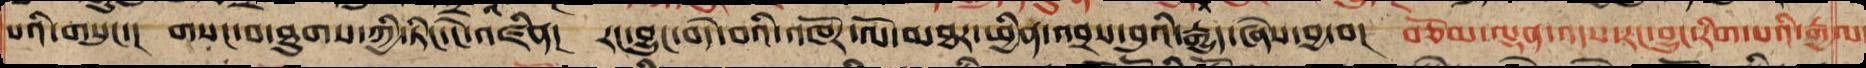པའི་གསུང་། གསང་བ་ཐུགས་ཀྱི་ཏིང་ངེ་འཛིན་། རང་བྱུང་བདེ་བའི་འཁོར་ལོ་མཐར་ཕྱིན་འབྲས་བུའི་རྒྱུད་ཅེས་བྱ་བ། བཅོམ་ལྡན་འདས་རང་བྱུང་རིག་པའི་རྒྱལ
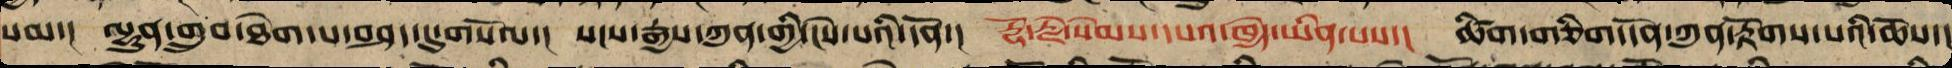སམ་། ལྷུན་གྲུབ་ཐེག་པ་བཤད་དུ་གསོལ་། སངས་རྒྱས་ཀུན་གྱི་ངེས་པའི་དོན་། རྡོ་རྗེ་སེམས་དཔའ་ཁྱེད་ཡིན་པས་། ཚིག་གཅིག་དོན་ཀུན་རྟོགས་པའི་ཆོས་།
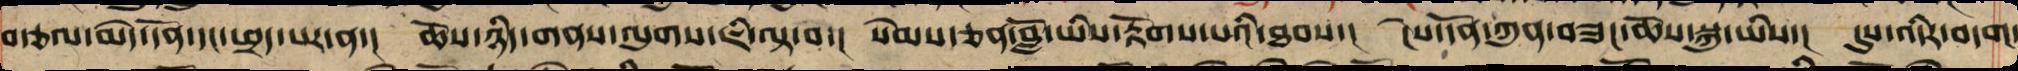བཙལ་མེད་དོན་དང་ཕྲད་པར་ན་། ཆོས་ཉིད་གནས་ལུགས་ཇི་ལྟ་བ་། སེམས་ཅན་བློ་ཡིས་རྟོགས་པའི་ཐབས་། ངེས་དོན་ཀུན་བཟང་ཆོས་སྐུ་ཡིས་། དུས་འདིར་བདག་
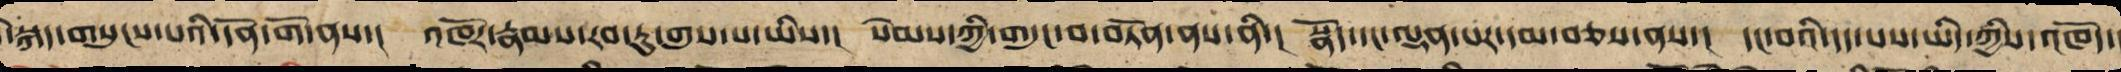་སྐད་གསུངས་པའི་དོན་གོ་ནས་། འཁོར་རྣམས་རབ་ཏུ་གུས་པ་ཡིས་། སེམས་ཀྱི་གདུང་བ་བཏོན་ནས་ནི་། སྣོད་དང་ལྡན་པར་དམ་བཅས་ནས་། དང་བའི་དད་པའི་ཡིད་ཀྱིས་འཁོད་།
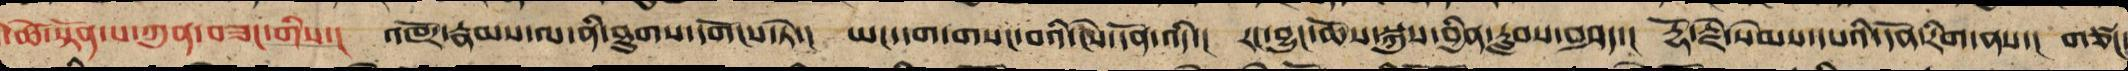་ཚེ་སྟོན་པ་ཀུན་བཟང་གིས་། འཁོར་རྣམས་ལ་ནི་ཐུགས་དགོངས་ཏེ་། ཡང་དག་གསང་བའི་ངེས་དོན་འདི་། རང་བྱུང་ཆོས་སྐུས་བྱིན་བརླབས་བཤད་། རྡོ་རྗེ་སེམས་དཔའི་དོན་རིག་ནས་། གཙང
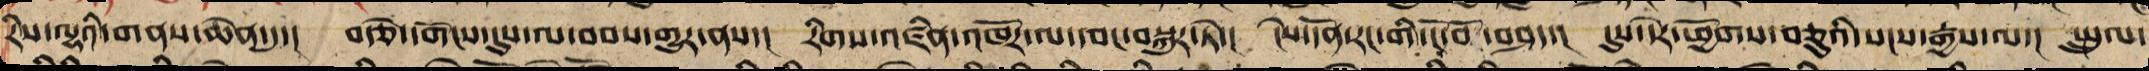རིས་ལྷའི་གནས་ཆེན་དུ་། བརྩེར་དགོངས་དུས་ལ་བབ་གྱུར་ནས་། རིགས་འཛིན་འཁོར་ལ་དབང་བསྐུར་ཏེ་། ངེས་དོན་རང་གི་ངོ་བོས་བཤད་། དུས་དེར་ཕྱོགས་བཅུའི་སངས་རྒྱས་ལ་། སྤྲུལ་
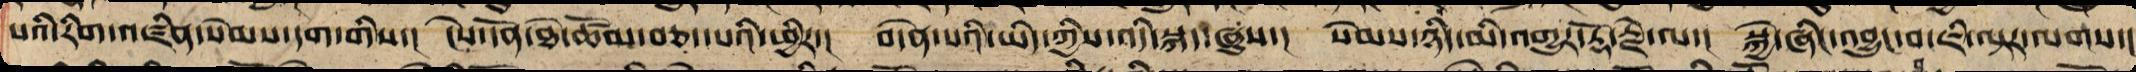པའི་རིག་འཛིན་སེམས་དག་གིས་། ངེས་དོན་ཐེ་ཚོམ་བཅད་པའི་ཕྱིར་། བདེན་པའི་ཡིད་ཀྱིས་འདི་སྐད་ཞུས་། སེམས་ཉིད་མི་འགྱུར་རྡོ་རྗེ་ལ་། སྐྱེ་ཞིང་འབྱུང་བ་ཇི་ལྟར་ལགས་།
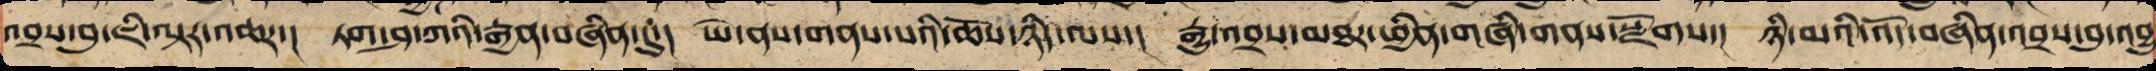འབྲས་བུ་ཇི་ལྟར་འཆར་། ཏག་ཤ་ཀའི་རྒྱན་བཞིན་དུ་། ཡེ་ནས་གནས་པའི་ཆོས་ཉིད་ལས་། རྒྱུ་འབྲས་མཐར་ཕྱིན་གཞི་ནས་སྫོགས་། ཉི་མའི་འོད་བཞིན་འབྲས་བུ་འབྱུ
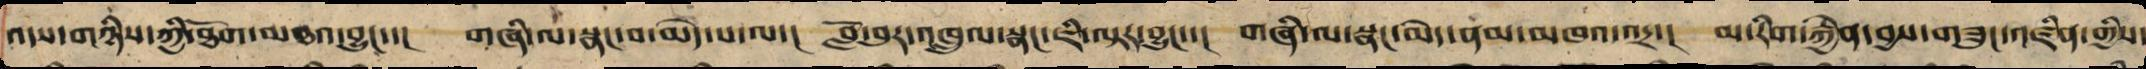འདས་གཉིས་ཀྱི་ཐོག་མཐའ་བྱུང་་། གཞི་ལ་སྣང་བ་མེད་པ་ལས་། གློ་བུར་འཁྲུལ་སྣང་ཇི་ལྟར་བྱུང་་། གཞི་ལ་སྣང་མེད་ནམ་མཁའ་འདྲ་། མ་རིག་རྐྱེན་བྱས་གཟུང་འཛིན་གྱིས་
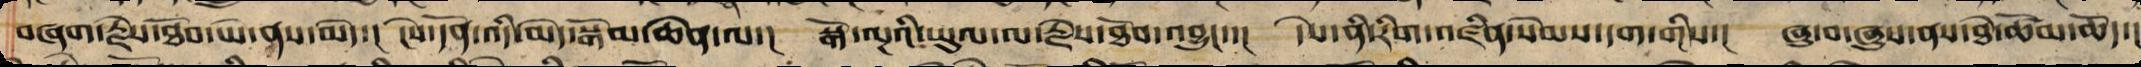བཞག་རྗེས་ཐོབ་ཡེ་ནས་མེད་། ངེས་དོན་འདི་མེད་སྒོམ་ཆེན་ལ་། སྒོ་ལྔའི་ཡིད་ལ་རྗེས་ཐོབ་འབྱུང་་། དེས་ནི་རིག་འཛིན་སེམས་དག་གིས་། ཞུ་བ་ཞུས་ནས་ཐེ་ཚོམ་ཆོད་།
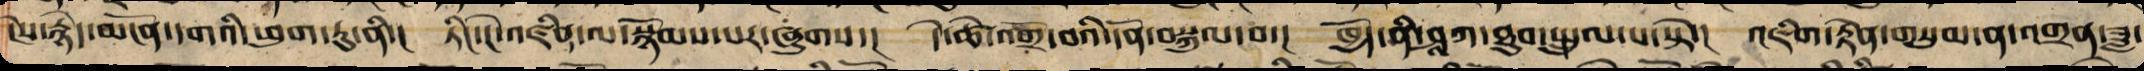ངེས་རྙེད་མངོན་དགའི་ཕུག་ཏུ་ནི་། ཏིང་ངེ་འཛིན་ལ་སྙོམས་པར་ཞུགས་། དེ་ཚེ་འགྲོ་བའི་དོན་བསྐུལ་བ་། ཁྱོད་ནི་ཤཱཀ་ཐུབ་སྤྲུལ་པ་སྟེ་། འཇིག་རྟེན་གསུམ་ན་འགྲན་ཟླ་
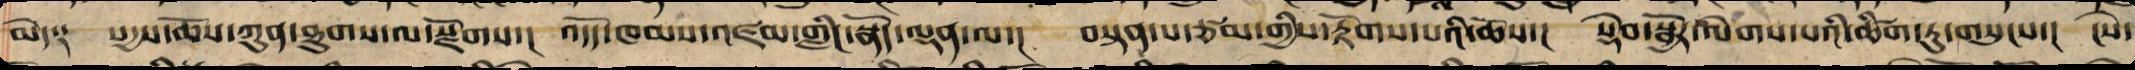མེད༑ སདྱས་ཆོས་ཀུན་ཐུགས་ལ་སྫོགས་། འདོད་ཁམས་འཛམ་གླིང་སྣོད་ལྡན་ལ་། བསྟན་པ་ཙམ་གྱིས་རྟོགས་པའི་ཆོས་། སྡེབ་སྦྱོར་ལེགས་པའི་ཚིག་ཏུ་གསུངས་། ངེས་
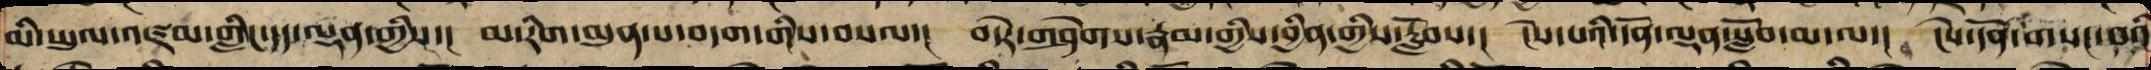མི་ཡུལ་འཛམ་གླིང་དད་ལྡན་གྱི་། མ་རིག་མུན་པ་བདག་གིས་བསལ་། བདེ་གཤེགས་རྣམས་ཀྱི་བྱིན་གྱིས་རློབས་། ངེས་པའི་དོན་ལྡན་སློབ་མ་ལ་། ངེས་དོན་གསང་བའི
